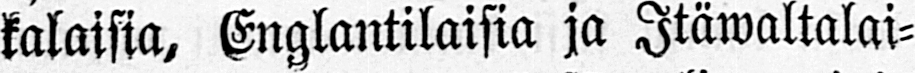kalaisia, Englantilaisia ja Itäwaltalai-
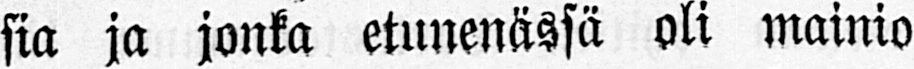sia ja jonka etunenässä oli mainio
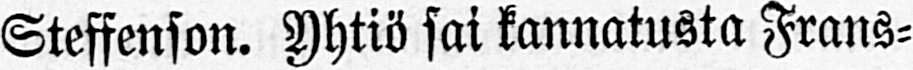Steffenson. Yhtiö sai kannatusta Frans-
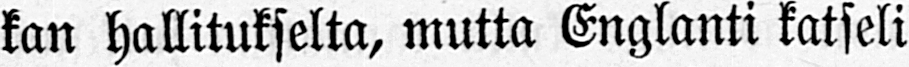kan hallitukselta, mutta Englanti katseli
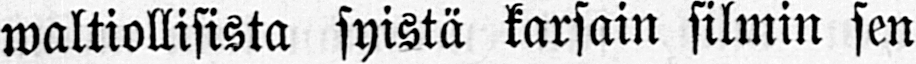waltiollisista syistä karsain silmin sen
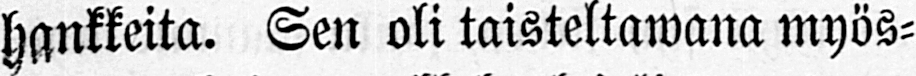hankkeita. Sen oli taisteltawana myös-
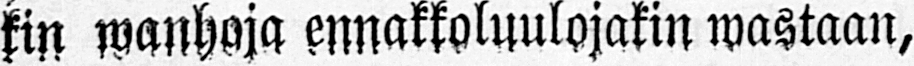kin wanhoja ennakkoluulojakin wastaan,
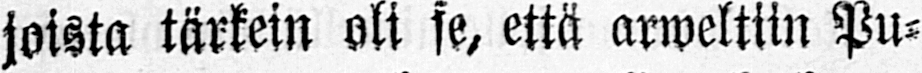joista tärkein oli se, että arweltiin Pu-
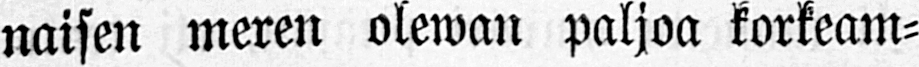naisen meren olewan paljoa korkeam-
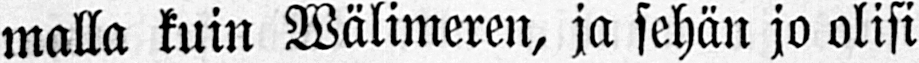malla kuin Wälimeren, ja sehän jo olisi
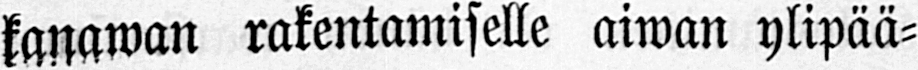kanawan rakentamiselle aiwan ylipää-
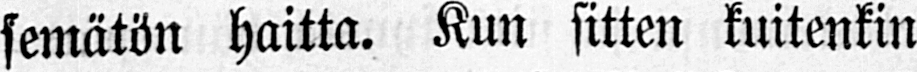semätön haitta. Kun sitten kuitenkin
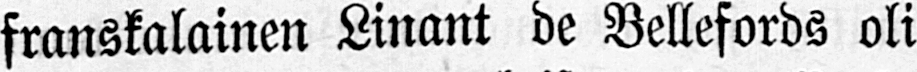franskalainen Linant de Bellefords oli
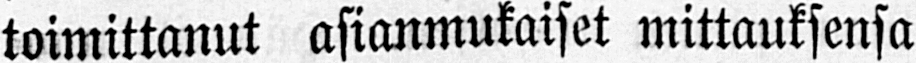toimittanut asianmukaiset mittauksensa
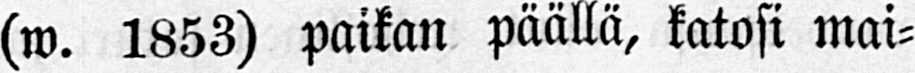(w.1853) paikan päällä, katosi mai-
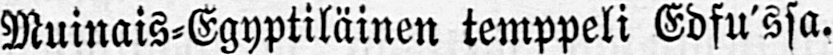Muinais-Egyptiläinen temppeli Edfu'ssa.
